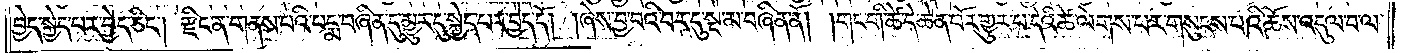བྱེད་སྐྱེད་པར་བྱེད་ཅིང༌། རྫིང་ན་གནས་པའི་པདྨ་བཞིན་དུ་མྱུར་དུ་སྐྱེད་པར་བྱེད་དོ། །ཞེས་བྱ་བའི་བར་དུ་སྔ་མ་བཞིན་ནོ། །གང་གི་ཚེ་དེ་ཆེན་པོར་གྱུར་པ་དེའི་ཚེ་ལེགས་པར་གསུངས་པའི་ཆོས་འདུལ་བ་ལ་
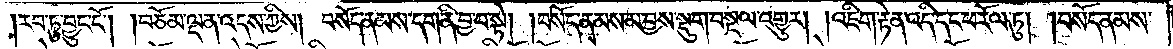།རབ་ཏུ་བྱུང་ངོ༌། །བཅོམ་ལྡན་འདས་ཀྱིས། བསོད་ནམས་དག་ནི་བྱ་བ་སྟེ། །བསོད་ནམས་མ་བྱས་སྡུག་བསྔལ་འགྱུར། །འཇིག་རྟེན་འདི་དང་ཕ་རོལ་ཏུ། །བསོད་ནམས་
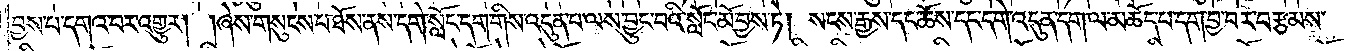བྱས་པ་དགའ་བར་འགྱུར། །ཞེས་གསུངས་པ་ཐོས་ནས་དགེ་སློང་དག་གིས་འདུན་པ་ལས་བྱུང་བའི་སློང་མོ་བྱས་ཏེ། སངས་རྒྱས་དང་ཆོས་དང་དགེ་འདུན་དག་ལ་མཆོད་པ་དག་བྱ་བར་བརྩམས་
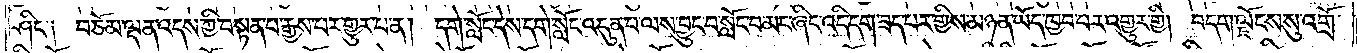ཤིང་༑ བཅོམ་ལྡན་འདས་ཀྱི་བསྟན་པ་རྒྱས་པར་གྱུར་པ་ན། དགེ་སློང་དེས་དགེ་སློང་འདུན་པ་ལས་བྱུང་བ་སློང་བ་མང་ཞིང་འདི་དག་ཟད་པར་གྱིས་མཉན་ཡོད་ཁྱབ་པར་འགྱུར་གྱི། བདག་ལྗོངས་སུ་འགྲོ་
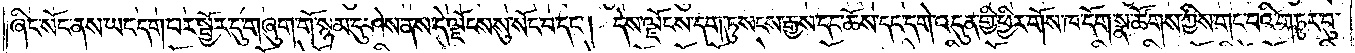ཞིང་སོང་ནས་ཡང་དག་པར་སྦྱོར་དུ་གཞུག་གོ་སྙམ་དུ་ཤེས་ནས་དེ་ལྗོངས་སུ་སོང་བ་དང༌། དེས་ལྗོངས་དག་ཏུ་སངས་རྒྱས་དང་ཆོས་དང་དགེ་འདུན་གྱི་ཕྱིར་གོས་ཁ་དོག་སྣ་ཚོགས་ཀྱིས་གང་བའི་གཏུར་བུ་
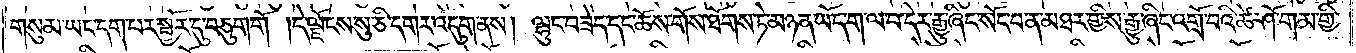གསུམ་ཡང་དག་པར་སྦྱོར་དུ་བཅུག་གོ །དེ་ལྗོངས་སུ་ཅི་དགར་འདུག་ནས། ལྷུང་བཟེད་དང་ཆོས་གོས་ཐོགས་ཏེ་མཉན་ཡོད་ག་ལ་བ་དེར་རྒྱུ་ཞིང་སོང་བ་ན་མཐར་གྱིས་རྒྱུ་ཞིང་འགྲོ་བའི་ཚེ་ཤོ་གམ་གྱི་
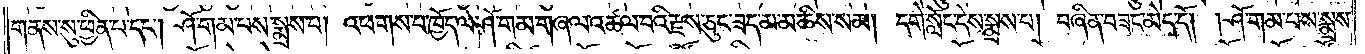གནས་སུ་ཕྱིན་པ་དང༌། ཤོ་གམ་པས་སྨྲས་པ། འཕགས་པ་ཁྱོད་ལ་ཤོ་གམ་གཞལ་འཚལ་བའི་རྫས་ཅུང་ཟད་མ་མཆིས་སམ། དགེ་སློང་དེས་སྨྲས་པ། བཞིན་བཟང་མེད་དོ། །ཤོ་གམ་པས་སྨྲས་
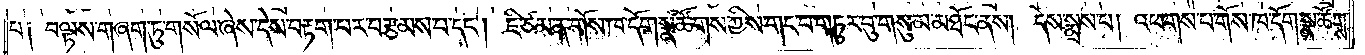པ༑ བལྟས་གཞག་ཏུ་གསོལ་ཞེས་དེས་བརྟག་པར་བརྩམས་པ་དང༌། ཇི་ཙམ་ན་གོས་ཁ་དོག་སྣ་ཚོགས་ཀྱིས་གང་བ་གཏུར་བུ་གསུམ་མཐོང་ནས། དེས་སྨྲས་པ། འཕགས་པ་གོས་ཁ་དོག་སྣ་ཚོགས་
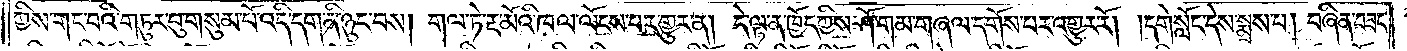ཀྱིས་གང་བའི་གཏུར་བུ་གསུམ་པོ་འདི་དག་ནི་ཉུང་བས། གལ་ཏེ་རྔ་མོའི་ཁལ་ལོངས་པར་གྱུར་ན། དེ་ལྟ་ན་ཁྱོད་ཀྱིས་ཤོ་གམ་གཞལ་དགོས་པར་འགྱུར་རོ། །དགེ་སློང་དེས་སྨྲས་པ། བཞིན་བཟང་
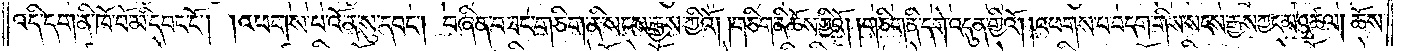འདི་དག་ནི་ཁོ་བོ་མི་དབང་ངོ༌། །འཕགས་པ་འོ་ན་སུ་དབང༌། བཞིན་བཟང་གཅིག་ནི་སངས་རྒྱས་ཀྱིའོ། །གཅིག་ནི་ཆོས་ཀྱིའོ། །གཅིག་ནི་དགེ་འདུན་གྱིའོ། །འཕགས་པ་བདག་གིས་སངས་རྒྱས་ཀྱང་མ་འཚལ། ཆོས་
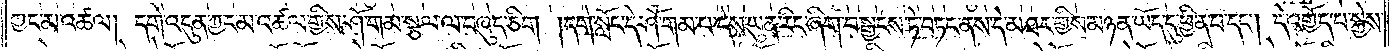ཀྱང་མ་འཚལ། དགེ་འདུན་ཀྱང་མ་འཚལ་གྱིས་ཤོ་གམ་སྩལ་ལ་བཞུད་ཅིག །དགེ་སློང་དེ་ཤོ་གམ་པ་དེས་ཡུན་རིང་ཞིག་བསྒྱངས་ཏེ་བཏང་ནས་དེ་མཐར་གྱིས་མཉན་ཡོད་དུ་ཕྱིན་པ་དང༌། དེ་འགྱོད་པ་སྐྱེས་
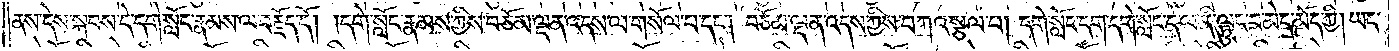ནས་དེས་སྐབས་དེ་དགེ་སློང་རྣམས་ལ་བརྗོད་དོ། །དགེ་སློང་རྣམས་ཀྱིས་བཅོམ་ལྡན་འདས་ལ་གསོལ་པ་དང༌། བཅོམ་ལྡན་འདས་ཀྱིས་བཀའ་སྩལ་པ། དགེ་སློང་དག་དགེ་སློང་དེ་ལ་ནི་ལྟུང་བ་མེད་མོད་ཀྱི། ཡང་
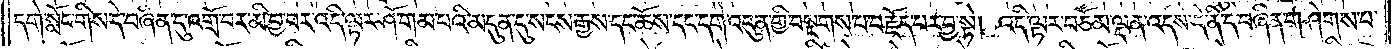དགེ་སློང་གིས་དེ་བཞིན་དུ་འགྲོ་བར་མི་བྱ་བར་འདི་ལྟར་ཤོ་གམ་པའི་མདུན་དུ་སངས་རྒྱས་དང་ཆོས་དང་དགེ་འདུན་གྱི་བསྔགས་པ་བརྗོད་པར་བྱ་སྟེ། འདི་ལྟར་བཅོམ་ལྡན་འདས་དེ་ནི་དེ་བཞིན་གཤེགས་པ་
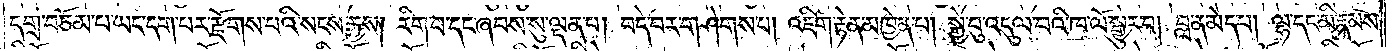དགྲ་བཅོམ་པ་ཡང་དག་པར་རྫོགས་པའི་སངས་རྒྱས། རིག་པ་དང་ཞབས་སུ་ལྡན་པ། བདེ་བར་གཤེགས་པ། འཇིག་རྟེན་མཁྱེན་པ། སྐྱེ་བུ་འདུལ་བའི་ཁ་ལོ་སྒྱུར་བ། བླ་ན་མེད་པ། ལྷ་དང་མི་རྣམས་
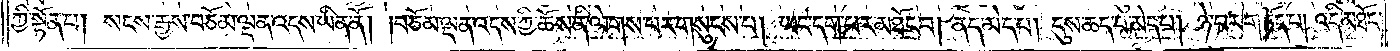ཀྱི་སྟོན་པ། སངས་རྒྱས་བཅོམ་ལྡན་འདས་ཡིན་ནོ། །བཅོམ་ལྡན་འདས་ཀྱི་ཆོས་ནི་ལེགས་པར་གསུངས་པ། ཡང་དག་པར་མཐོང་བ། ནད་མེད་པ། དུས་ཆད་པ་མེད་པ། ཉེ་བར་གཏོད་པ། འདི་མཐོང་
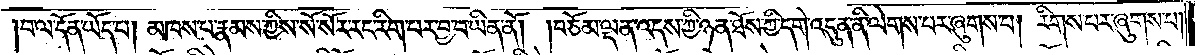བ་ལ་དོན་ཡོད་པ། མཁས་པ་རྣམས་ཀྱིས་སོ་སོར་རང་རིག་པར་བྱ་བ་ཡིན་ནོ། །བཅོམ་ལྡན་འདས་ཀྱི་ཉན་ཐོས་ཀྱི་དགེ་འདུན་ནི་ལེགས་པར་ཞུགས་པ། རིགས་པར་ཞུགས་པ།
